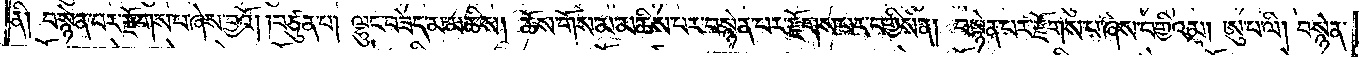ནི། བསྙེན་པར་རྫོགས་པ་ཞེས་བྱའོ། །བཙུན་པ། ལྷུང་བཟེད་མ་མཆིས། ཆོས་གོས་མ་མཆིས་པར་བསྙེན་པར་རྫོགས་པར་བགྱིས་ན། བསྙེན་པར་རྫོགས་པ་ཞེས་བགྱིའམ། ཨུ་པ་ལི། བསྙེན་
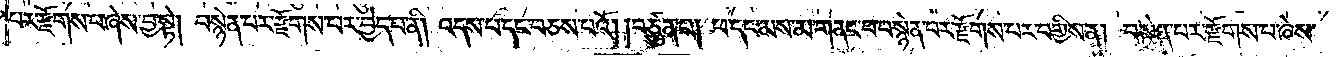པར་རྫོགས་པ་ཞེས་བྱ་སྟེ། བསྙེན་པར་རྫོགས་པར་བྱེད་པ་ནི། འདས་པ་དང་བཅས་པའོ། །བཙུན་པ། ཕ་དང་མས་མ་གནང་བ་བསྙེན་པར་རྫོགས་པར་བགྱིས་ན། བསྙེན་པར་རྫོགས་པ་ཞེས་
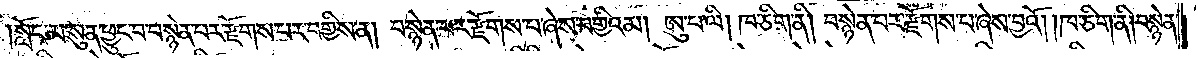།སློང་མ་སུན་ཕྱུང་བ་བསྙེན་པར་རྫོགས་པར་བགྱིས་ན། བསྙེན་པར་རྫོགས་པ་ཞེས་བགྱིའམ། ཨུ་པ་ལི། ཁ་ཅིག་ནི། བསྙེན་པར་རྫོགས་པ་ཞེས་བྱའོ། །ཁ་ཅིག་ནི། བསྙེན་
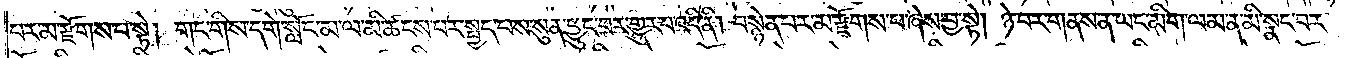པར་མ་རྫོགས་པ་སྟེ། གང་གིས་དགེ་སློང་མ་ལ་མི་ཚངས་པར་སྤྱད་པས་སུན་ཕྱུང་བར་གྱུར་པ་འདི་ནི། བསྙེན་པར་མ་རྫོགས་པ་ཞེས་བྱ་སྟེ། ཉེ་བར་གནས་ན་ཡང་མིག་ལམ་ན་མི་སྣང་བར་
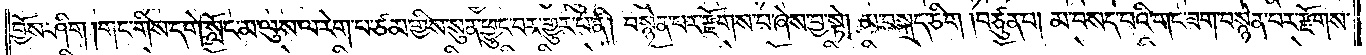བྱོས་ཤིག །གང་གིས་དགེ་སློང་མ་ལུས་ལ་རེག་པ་ཙམ་གྱིས་སུན་ཕྱུང་བར་གྱུར་པ་ནི། བསྙེན་པར་རྫོགས་པ་ཞེས་བྱ་སྟེ། མ་བསྐྲད་ཅིག །བཙུན་པ། མ་བསད་པའི་གང་ཟག་བསྙེན་པར་རྫོགས་
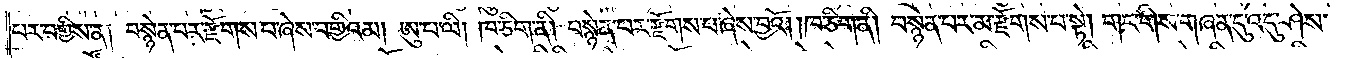པར་བགྱིས་ན། བསྙེན་པར་རྫོགས་པ་ཞེས་བགྱིའམ། ཨུ་པ་ལི། ཁ་ཅིག་ནི། བསྙེན་པར་རྫོགས་པ་ཞེས་བྱའོ། །ཁ་ཅིག་ནི། བསྙེན་པར་མ་རྫོགས་པ་སྟེ། གང་གིས་གཞན་དུ་འདུ་ཤེས་
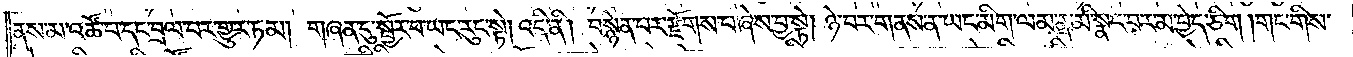ནས་མ་འཚོ་བ་དང་བྲལ་བར་གྱུར་ཏམ། གཞན་དུ་སྦྱོར་བ་ཡང་རུང་སྟེ། འདི་ནི། བསྙེན་པར་རྫོགས་པ་ཞེས་བྱ་སྟེ། ཉེ་བར་གནས་ན་ཡང་མིག་ལམ་ན་མི་སྣང་བར་མ་བྱེད་ཅིག །གང་གིས་
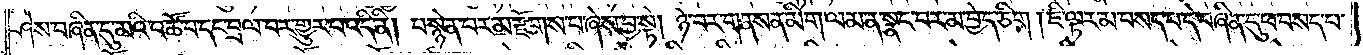ཤེས་བཞིན་དུ་མའི་འཚོ་བ་དང་བྲལ་བར་གྱུར་པ་འདི་ནི། བསྙེན་པར་མ་རྫོགས་པ་ཞེས་བྱ་སྟེ། ཉེ་བར་གནས་ན་མིག་ལམ་ན་སྣང་བར་མ་བྱེད་ཅིག །ཇི་ལྟར་མ་བསད་པ་དེ་བཞིན་དུ་ཕ་བསད་པ་
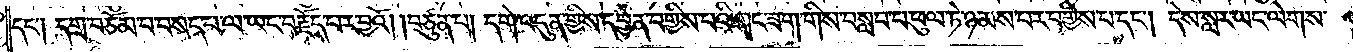དང༌། དགྲ་བཅོམ་པ་བསད་པ་ལ་ཡང་བརྗོད་པར་བྱའོ། །བཙུན་པ། དགེ་འདུན་གྱིས་དབྱེན་བགྱིས་པའི་གང་ཟག་གིས་བསླབ་པ་ཕུལ་ཏེ་ཉམས་པར་བགྱིས་པ་དང༌། དེས་སླར་ཡང་ལེགས་
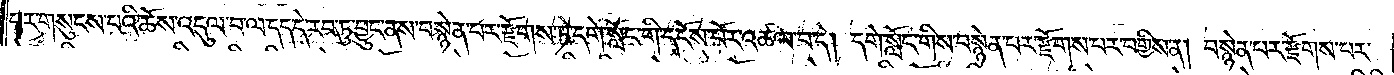པར་གསུངས་པའི་ཆོས་འདུལ་བ་ལ་དད་དེ་རབ་ཏུ་བྱུང་ནས་བསྙེན་པར་རྫོགས་ཏེ་དགེ་སློང་གི་དངོས་པོར་འཚལ་བ་དེ། དགེ་སློང་གིས་བསྙེན་པར་རྫོགས་པར་བགྱིས་ན། བསྙེན་པར་རྫོགས་པར་
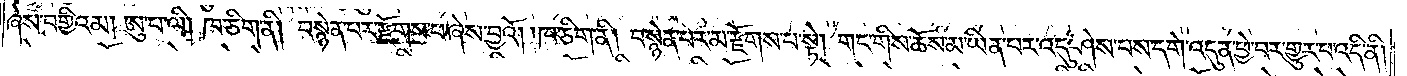ཞེས་བགྱིའམ། ཨུ་པ་ལི། ཁ་ཅིག་ནི། བསྙེན་པར་རྫོགས་པ་ཞེས་བྱའོ། །ཁ་ཅིག་ནི། བསྙེན་པར་མ་རྫོགས་པ་སྟེ། གང་གིས་ཆོས་མ་ཡིན་པར་འདུ་ཤེས་པས་དགེ་འདུན་ཕྱེ་བར་གྱུར་པ་འདི་ནི།
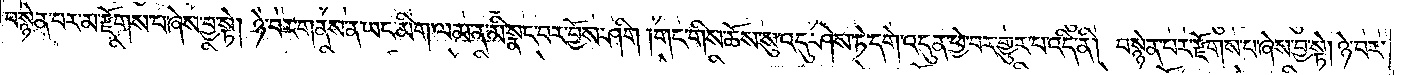བསྙེན་པར་མ་རྫོགས་པ་ཞེས་བྱ་སྟེ། ཉེ་བར་གནས་ན་ཡང་མིག་ལམ་ན་མི་སྣང་བར་བྱོས་ཤིག །གང་གིས་ཆོས་སུ་འདུ་ཤེས་ཏེ་དགེ་འདུན་ཕྱེ་བར་གྱུར་པ་འདི་ནི། བསྙེན་པར་རྫོགས་པ་ཞེས་བྱ་སྟེ། ཉེ་བར་
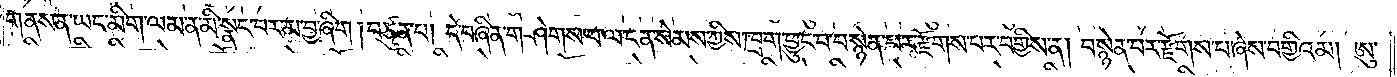གནས་ན་ཡང་མིག་ལམ་ན་མི་སྣང་བར་མ་བྱ་ཞིག །བཙུན་པ། དེ་བཞིན་གཤེགས་པ་ལ་ངན་སེམས་ཀྱིས་ཁྲག་ཕྱུང་བ་བསྙེན་པར་རྫོགས་པར་བགྱིས་ན། བསྙེན་པར་རྫོགས་པ་ཞེས་བགྱིའམ། ཨུ་
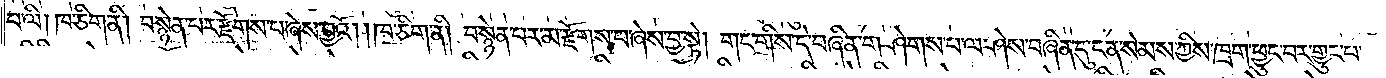པ་ལི། ཁ་ཅིག་ནི། བསྙེན་པར་རྫོགས་པ་ཞེས་བྱའོ། །ཁ་ཅིག་ནི། བསྙེན་པར་མ་རྫོགས་པ་ཞེས་བྱ་སྟེ། གང་གིས་དེ་བཞིན་གཤེགས་པ་ལ་ཤེས་བཞིན་དུ་ངན་སེམས་ཀྱིས་ཁྲག་ཕྱུང་བར་གྱུར་པ་
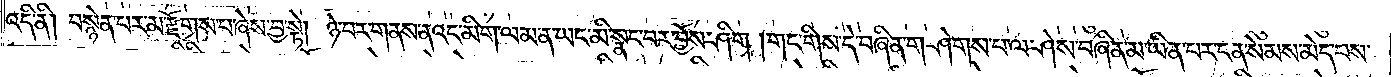འདི་ནི། བསྙེན་པར་མ་རྫོགས་པ་ཞེས་བྱ་སྟེ། ཉེ་བར་གནས་ནའང་མིག་ལམ་ན་ཡང་མི་སྣང་བར་བྱོས་ཤིག །གང་གིས་དེ་བཞིན་གཤེགས་པ་ལ་ཤེས་བཞིན་མ་ཡིན་པར་ངན་སེམས་མེད་པས་
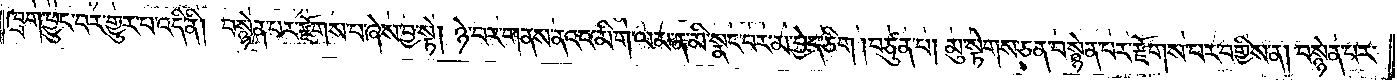ཁྲག་ཕྱུང་བར་གྱུར་པ་འདི་ནི། བསྙེན་པར་རྫོགས་པ་ཞེས་བྱ་སྟེ། ཉེ་བར་གནས་ནའང་མིག་ལམ་ན་མི་སྣང་བར་མ་བྱེད་ཅིག །བཙུན་པ། མུ་སྟེགས་ཅན་བསྙེན་པར་རྫོགས་པར་བགྱིས་ན། བསྙེན་པར་
